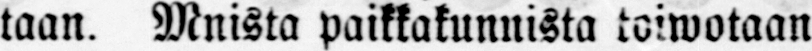taan. Mnista paikkakunnista toiwotaan
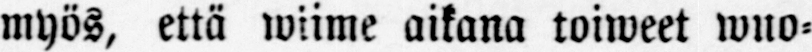myös, että wiime aikana toiweet wuo-
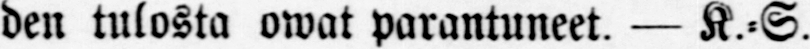den tulosta owat parantuneet. — K.-S.
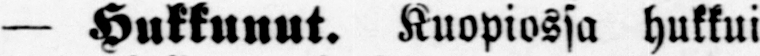— Hukkunut. Kuopiossa hukkui
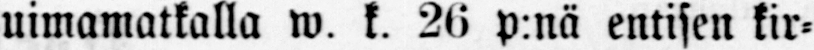uimamatkalla w. k. 26 p:nä entisen kir-
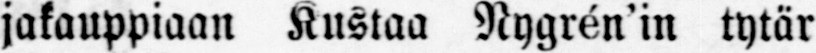jakauppiaan Kustaa Nygrén'in tytär
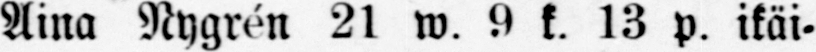Aina Nygrén 21 w. 9 k. 13 p. ikäi-
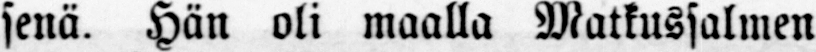senä. Hän oli maalla Matkussalmen
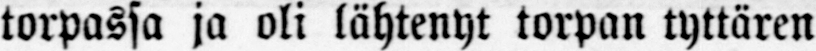torpassa ja oli lähtenyt torpan tyttären
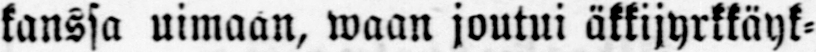kanssa uimaan, waan joutui äkkijyrkkäyk-
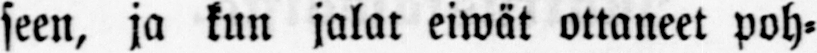seen, ja kun jalat eiwät ottaneet poh-
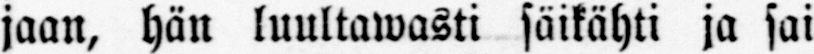jaan, hän luultawasti säikähti ja sai
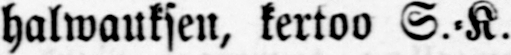halwauksen, kertoo S.-K.
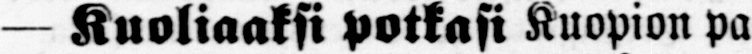— Kuoliaaksi potkasi Kuopion pa-
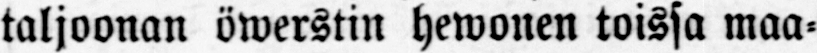taljoonan öwerstin hewonen toissa maa-
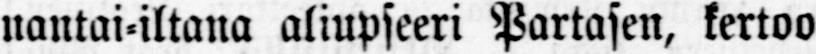nantai-iltana aliupseeri Partasen, kertoo
